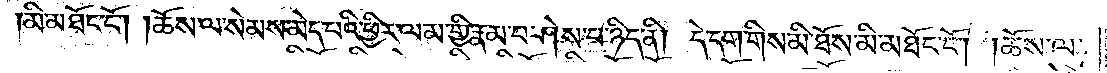མི་མཐོང་ངོ༌། །ཆོས་ལ་སེམས་མེད་པའི་ཕྱིར་ལམ་གྱི་རྣམ་པ་ཤེས་པ་ཉིད་ནི། དེ་དག་གིས་མི་ཐོས་མི་མཐོང་ངོ༌། །ཆོས་ལ་
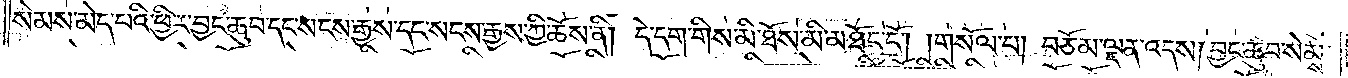སེམས་མེད་པའི་ཕྱིར་བྱང་ཆུབ་དང་སངས་རྒྱས་དང་སངས་རྒྱས་ཀྱི་ཆོས་ནི། དེ་དག་གིས་མི་ཐོས་མི་མཐོང་ངོ༌། །གསོལ་པ། བཅོམ་ལྡན་འདས། བྱང་ཆུབ་སེམས་
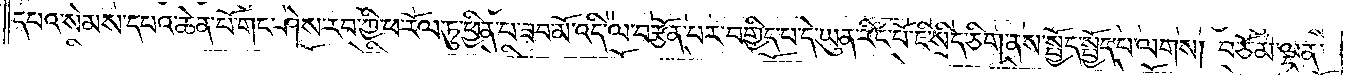དཔའ་སེམས་དཔའ་ཆེན་པོ་གང་ཤེས་རབ་ཀྱི་ཕ་རོལ་ཏུ་ཕྱིན་པ་ཟབ་མོ་འདི་ལ་བརྩོན་པར་བགྱིད་པ་དེ་ཡུན་རིང་པོ་ཇི་སྲིད་ཅིག་ནས་སྤྱོད་སྤྱོད་པ་ལགས། བཅོམ་ལྡན་
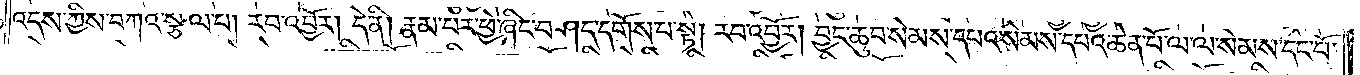འདས་ཀྱིས་བཀའ་སྩལ་པ། རབ་འབྱོར། དེ་ནི། རྣམ་པར་ཕྱེ་ཞིང་བཤད་དགོས་པ་སྟེ། རབ་འབྱོར། བྱང་ཆུབ་སེམས་དཔའ་སེམས་དཔའ་ཆེན་པོ་ལ་ལ་སེམས་དང་པོ་
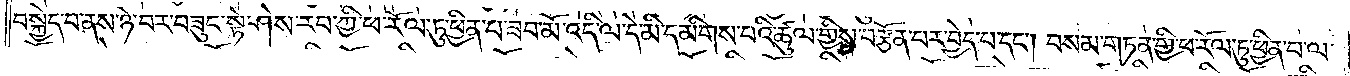བསྐྱེད་པ་ནས་ཉེ་བར་བཟུང་སྟེ་ཤེས་རབ་ཀྱི་ཕ་རོལ་ཏུ་ཕྱིན་པ་ཟབ་མོ་འདི་ལ་དེ་མི་དམིགས་པའི་ཚུལ་གྱིས་བརྩོན་པར་བྱེད་པ་དང༌། བསམ་གཏན་གྱི་ཕ་རོལ་ཏུ་ཕྱིན་པ་ལ་
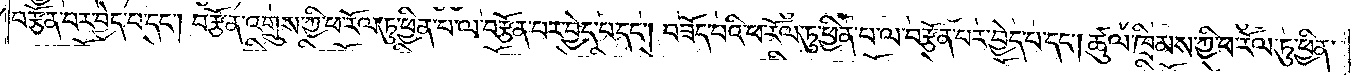བརྩོན་པར་བྱེད་པ་དང༌། བརྩོན་འགྲུས་ཀྱི་ཕ་རོལ་ཏུ་ཕྱིན་པ་ལ་བརྩོན་པར་བྱེད་པ་དང༌། བཟོད་པའི་ཕ་རོལ་ཏུ་ཕྱིན་པ་ལ་བརྩོན་པར་བྱེད་པ་དང༌། ཚུལ་ཁྲིམས་ཀྱི་ཕ་རོལ་ཏུ་ཕྱིན་
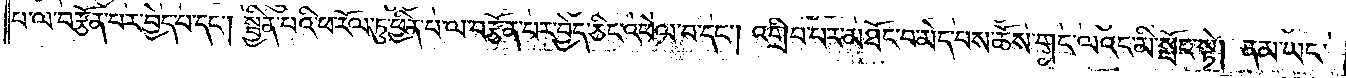པ་ལ་བརྩོན་པར་བྱེད་པ་དང༌། སྦྱིན་པའི་ཕ་རོལ་ཏུ་ཕྱིན་པ་ལ་བརྩོན་པར་བྱེད་ཅིང་འཕེལ་བ་དང༌། འགྲིབ་པར་མཐོང་བ་མེད་པས་ཆོས་གང་ལའང་མི་སྤོང་སྟེ། ནམ་ཡང་
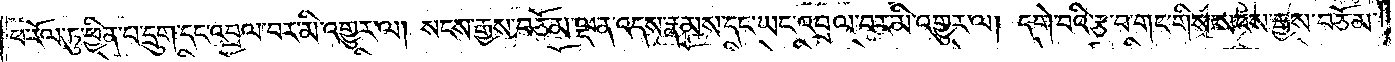ཕ་རོལ་ཏུ་ཕྱིན་པ་དྲུག་དང་འབྲལ་བར་མི་འགྱུར་ལ། སངས་རྒྱས་བཅོམ་ལྡན་འདས་རྣམས་དང་ཡང་འབྲལ་བར་མི་འགྱུར་ལ། དགེ་བའི་རྩ་བ་གང་གིས་སངས་རྒྱས་བཅོམ་
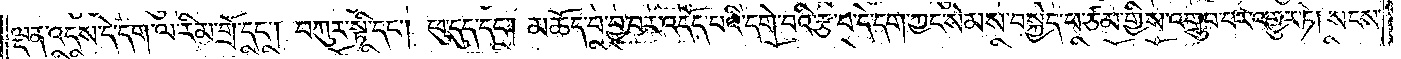ལྡན་འདས་དེ་དག་ལ་རིམ་གྲོ་དང༌། བཀུར་སྟི་དང༌། ཕུ་དུད་དང༌། མཆོད་པ་བྱ་བར་འདོད་པའི་དགེ་བའི་རྩ་བ་དེ་དག་ཀྱང་སེམས་བསྐྱེད་པ་ཙམ་གྱིས་འགྲུབ་པར་འགྱུར་ཏེ། སངས་
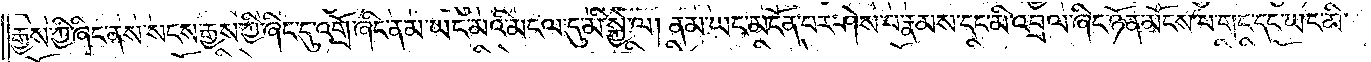རྒྱས་ཀྱི་ཞིང་ནས་སངས་རྒྱས་ཀྱི་ཞིང་དུ་འགྲོ་ཞིང་ནམ་ཡང་མའི་མངལ་དུ་མི་སྐྱེ་ལ། ནམ་ཡང་མངོན་པར་ཤེས་པ་རྣམས་དང་མི་འབྲལ་ཞིང་ཉོན་མོངས་པ་གང་དང་ཡང་མི་
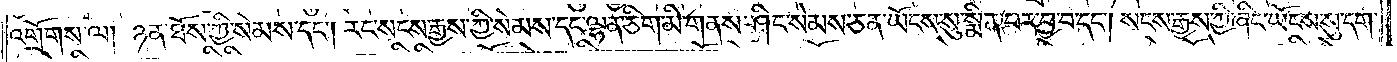འགྲོགས་ལ། ཉན་ཐོས་ཀྱི་སེམས་དང༌། རང་སངས་རྒྱས་ཀྱི་སེམས་དང་ལྷན་ཅིག་མི་གནས་ཤིང་སེམས་ཅན་ཡོངས་སུ་སྨིན་པར་བྱ་བ་དང༌། སངས་རྒྱས་ཀྱི་ཞིང་ཡོངས་སུ་དག་
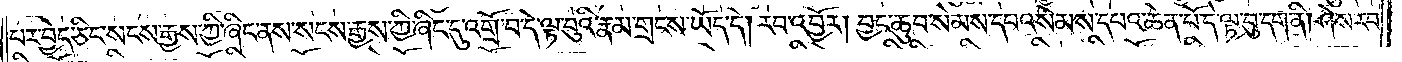པར་བྱེད་ཅིང་སངས་རྒྱས་ཀྱི་ཞིང་ནས་སངས་རྒྱས་ཀྱི་ཞིང་དུ་འགྲོ་བ་དེ་ལྟ་བུའི་རྣམ་གྲངས་ཡོད་དེ། རབ་འབྱོར། བྱང་ཆུབ་སེམས་དཔའ་སེམས་དཔའ་ཆེན་པོ་དེ་ལྟ་བུ་དག་ནི། ཤེས་རབ་
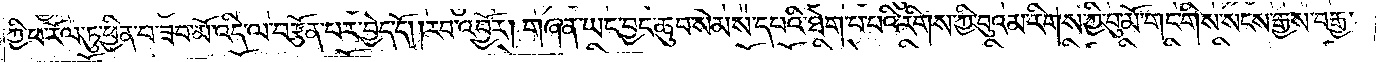ཀྱི་ཕ་རོལ་ཏུ་ཕྱིན་པ་ཟབ་མོ་འདི་ལ་བརྩོན་པར་བྱེད་དོ། །རབ་འབྱོར། གཞན་ཡང་བྱང་ཆུབ་སེམས་དཔའི་ཐེག་པ་པའི་རིགས་ཀྱི་བུའམ་རིགས་ཀྱི་བུ་མོ་གང་གིས་སངས་རྒྱས་བརྒྱ་
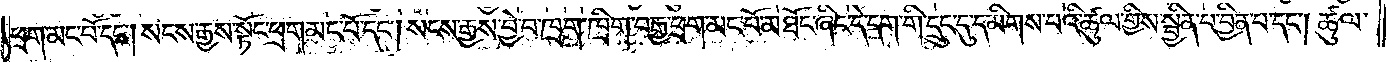ཕྲག་མང་པོ་དང༌། སངས་རྒྱས་སྟོང་ཕྲག་མང་པོ་དང༌། སངས་རྒྱས་བྱེ་བ་ཁྲག་ཁྲིག་བརྒྱ་ཕྲག་མང་པོ་མཐོང་ཞིང་དེ་དག་གི་དྲུང་དུ་དམིགས་པའི་ཚུལ་གྱིས་སྦྱིན་པ་བྱིན་པ་དང༌། ཚུལ་
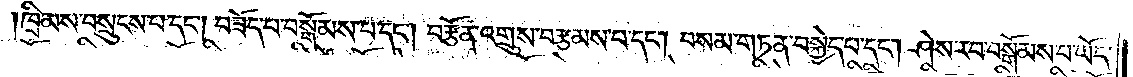ཁྲིམས་བསྲུངས་པ་དང༌། བཟོད་པ་བསྒོམས་པ་དང༌། བརྩོན་འགྲུས་བརྩམས་པ་དང༌། བསམ་གཏན་བསྐྱེད་པ་དང༌། ཤེས་རབ་བསྒོམས་པ་ཡོད་
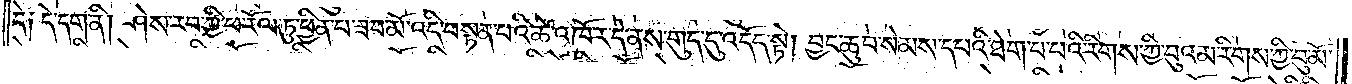དེ༑ དེ་དག་ནི། ཤེས་རབ་ཀྱི་ཕ་རོལ་ཏུ་ཕྱིན་པ་ཟབ་མོ་འདི་བསྟན་པའི་ཚེ་འཁོར་དེ་ནས་གུད་དུ་འདོད་སྟེ། བྱང་ཆུབ་སེམས་དཔའི་ཐག་པ་པའི་རིགས་ཀྱི་བུའམ་རིགས་ཀྱི་བུ་མོ་
